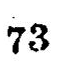73
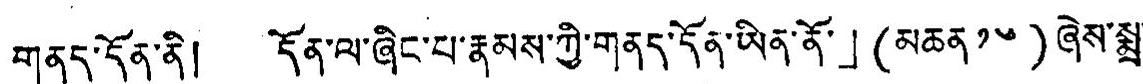གནད་དོན་ནི། དོན་ལ་ཞིང་པ་རྣམས་ཀྱི་གནད་དོན་ཡིན་ནོ་」(མཆན ༡༦)ཞེས་སྨྲ་
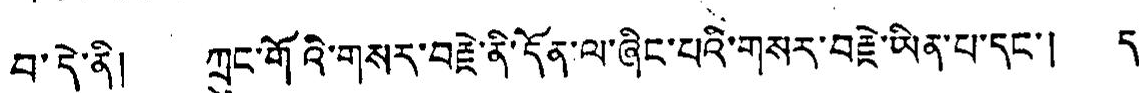བ་དེ་ནི། ཀྲུང་གོའི་གསར་བརྗེ་ནི་དོན་ལ་ཞིང་པའི་གསར་བརྗེ་ཡིན་པ་དང་། ད་
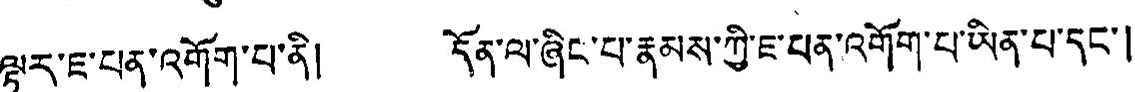ལྟར་ཇ་པན་འགོག་པ་ནི། དོན་ལ་ཞིང་པ་རྣམས་ཀྱི་ཇ་པན་འགོག་པ་ཡིན་པ་དང་།
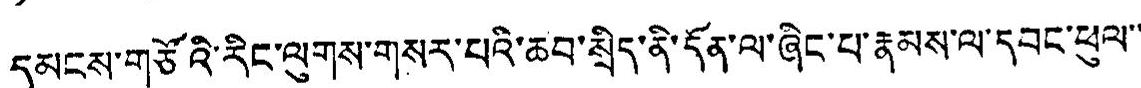དམངས་གཙོའི་རིང་ལུགས་གསར་པའི་ཆབ་སྲིད་ནི་དོན་ལ་ཞིང་པ་རྣམས་ལ་དབང་ཕུལ་་
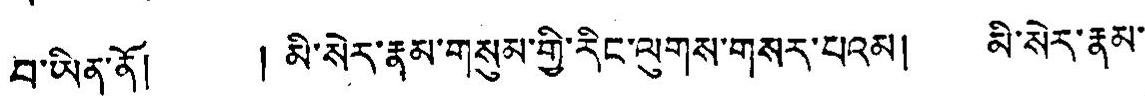བ་ཡིན་ནོ། །མི་སེར་རྣམ་གསུམ་གྱི་རིང་ལུགས་གསར་པའམ། མི་སེར་རྣམ་
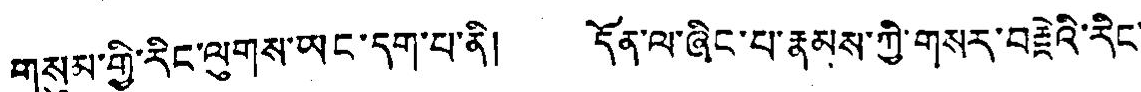གསུམ་གྱི་རིང་ལུགས་ཡང་དག་པ་ནི། དོན་ལ་ཞིང་པ་རྣམས་ཀྱི་གསར་བརྗེའི་རིང་
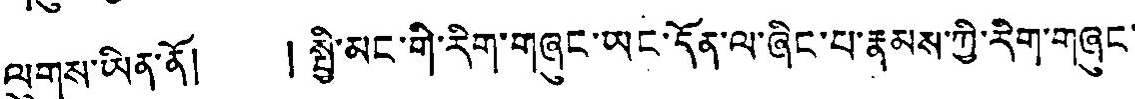ལུགས་ཡིན་ནོ། །སྤྱི་མང་གི་རིག་གཞུང་ཡང་དོན་ལ་ཞིང་པ་རྣམས་ཀྱི་རིག་གཞུང་
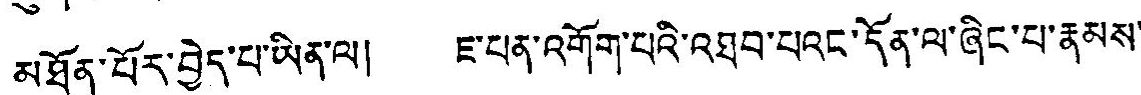མཐོན་པོར་བྱེད་པ་ཡིན་ལ། ཇ་པན་འགོག་པའི་འཐབ་པའང་དོན་ལ་ཞིང་པ་རྣམས་
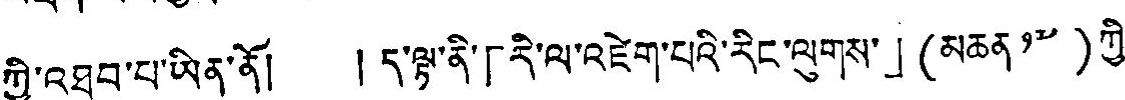ཀྱི་འཐབ་པ་ཡིན་ནོ། ། ད་ལྟ་ནི་「རི་ལ་འཇོག་པའི་རིང་ལུགས་」(མཆན ༡༧ )ཀྱི་
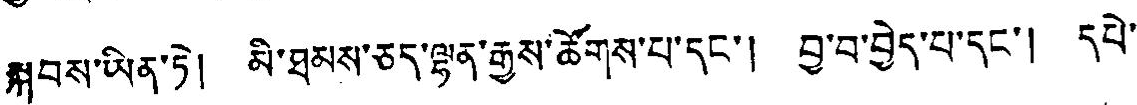སྐབས་ཡིན་ཏེ། མི་ཐམས་ཅད་ལྷན་རྒྱས་ཚོགས་པ་དང་། བྱ་བ་བྱེད་པ་དང་། དཔེ་
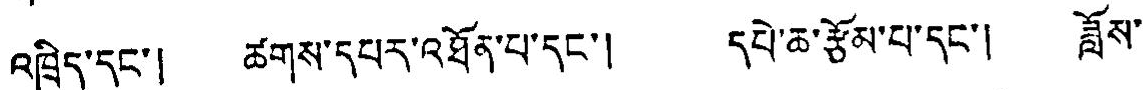འཁྲིད་དང་། ཚགས་དཔར་འཐོན་པ་དང་། དཔེ་ཆ་རྩོམ་པ་དང་། ཟློས་
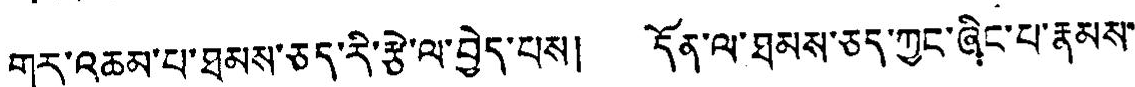གར་འཆམ་པ་ཐམས་ཅད་རི་རྩེ་ལ་བྱེད་པས། དོན་ལ་ཐམས་ཅད་ཀྱང་ཞིང་པ་རྣམས་
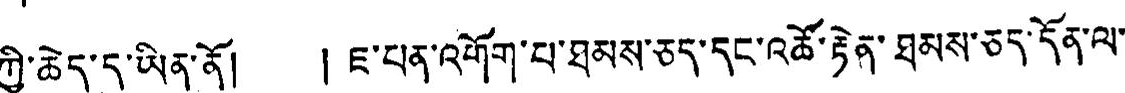ཀྱི་ཆེད་དུ་ཡིན་ནོ། །ཇ་པན་འགོག་པ་ཐམས་ཅད་དང་འཚོ་རྟེན་ཐམས་ཅད་དོན་ལ་
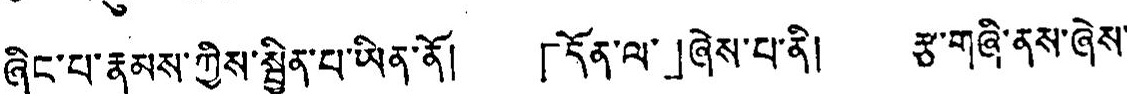ཞིང་པ་རྣམས་ཀྱིས་སྦྱིན་པ་ཡིན་ནོ། 「དོན་ལ་」ཞེས་པ་ནི། རྩ་གཞི་ནས་ཞེས་
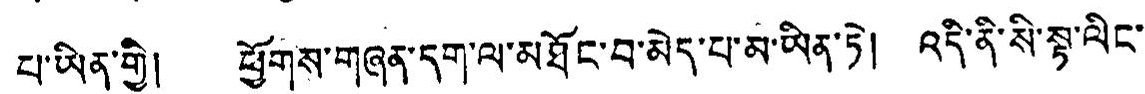པ་ཡིན་གྱི། ཕྱོགས་གཞན་དག་ལ་མཐོང་བ་མེད་པ་མ་ཡིན་ཏེ། འདི་ནི་སི་སྟ་ལིང་
